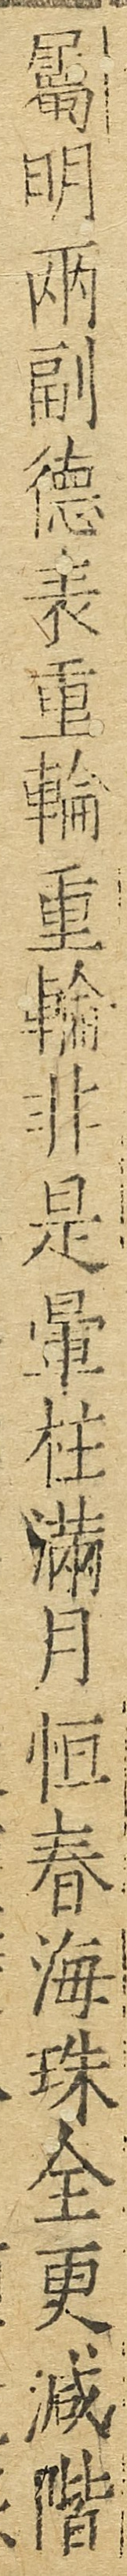屬明兩副德表重輪重輪非是暈桂滿月恆春海珠全更減階
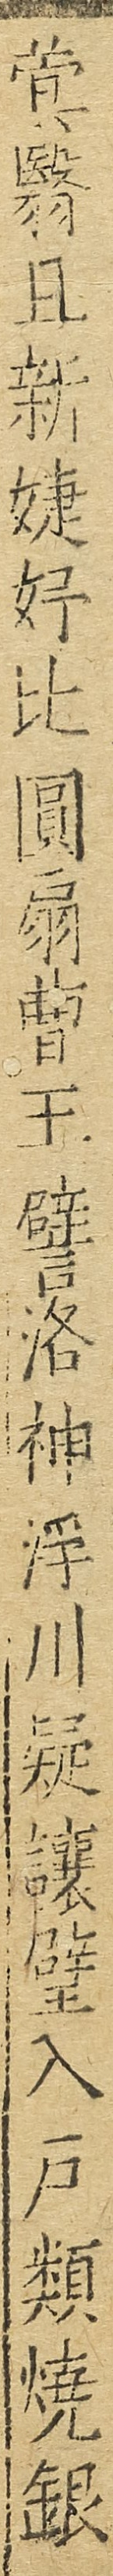蓂翳且新婕妤比圓扇曹王譬洛神浮川疑讓璧入戶類燒銀
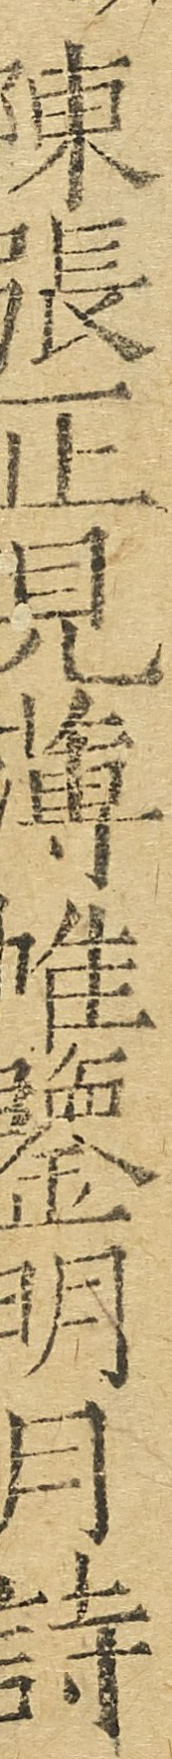陳張正見薄帷鑒明月詩
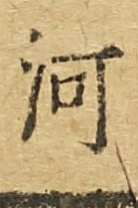河
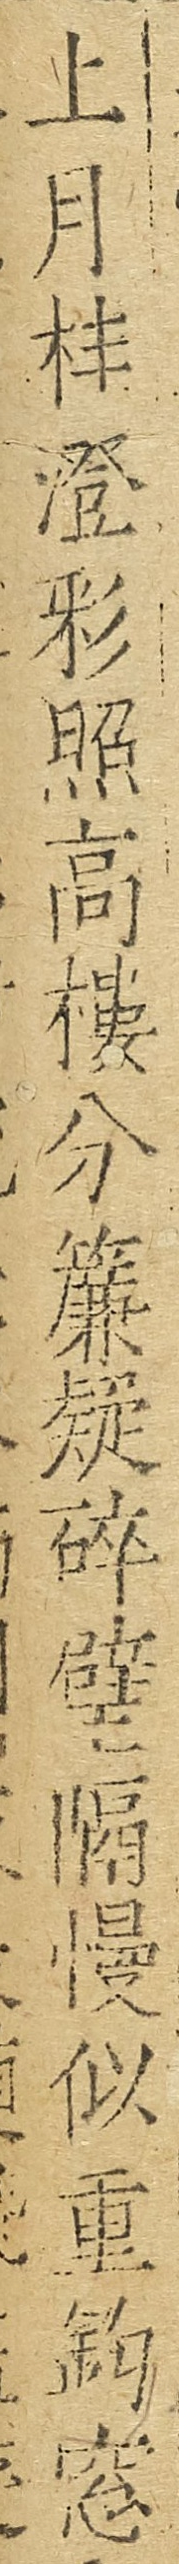上月桂澄彩照高樓分簾疑碎璧隔幔似重鈎窗
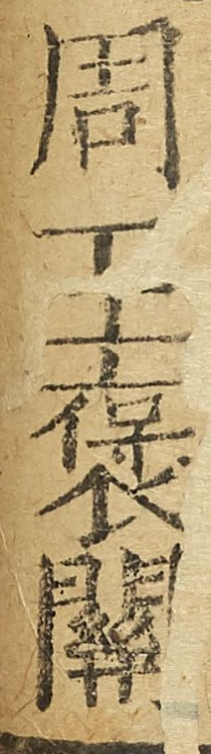周王褒關
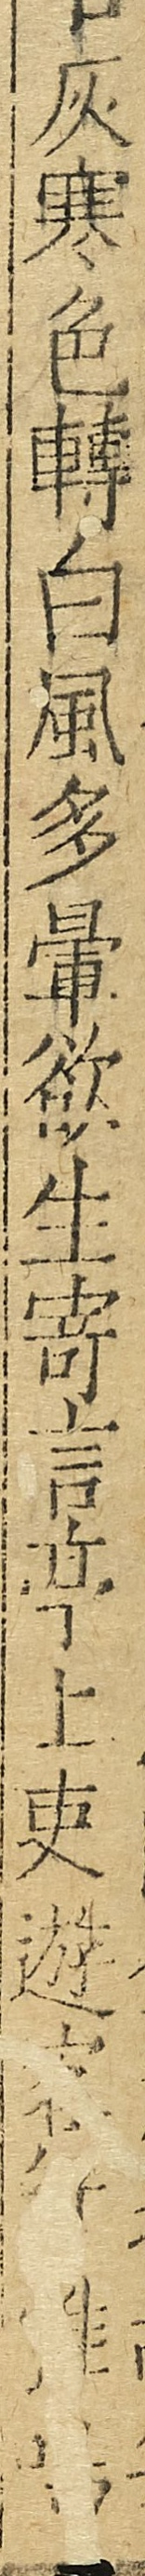灰寒色轉白風多暈欲生寄言亭上吏遊客解雞鳴
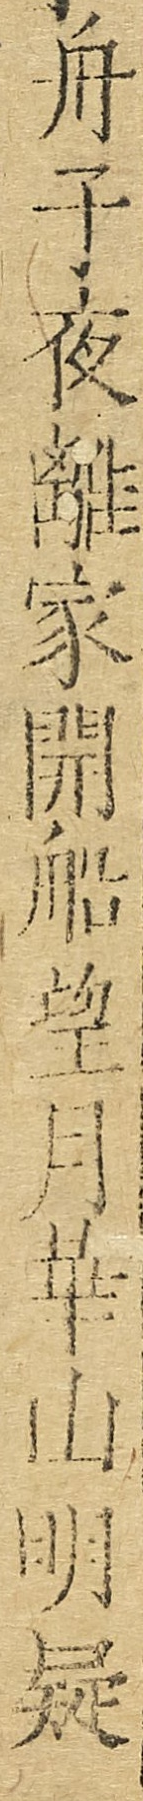舟子夜離家開船望月華山明疑
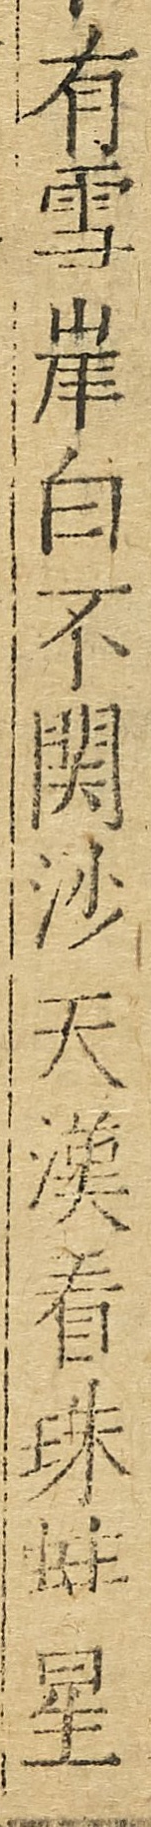有雪岸白不關沙天漢看珠蚌星
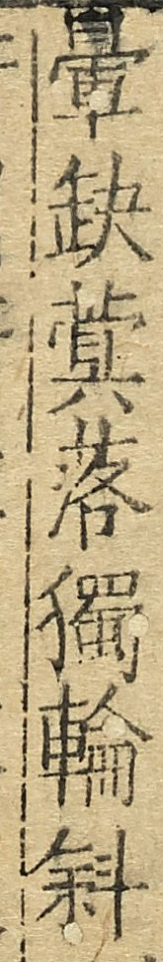暈缺蓂落獨輪斜
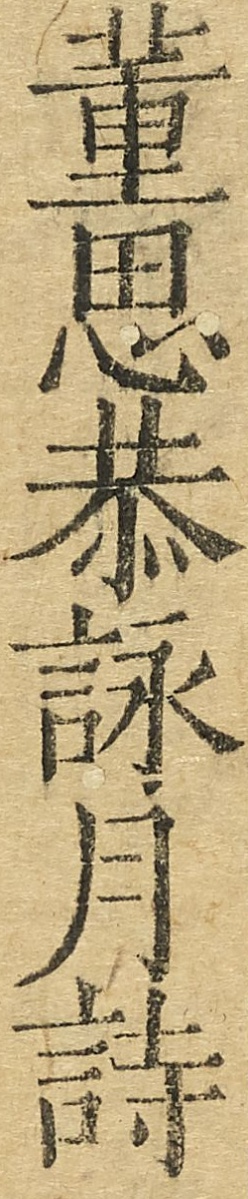董思恭詠月詩
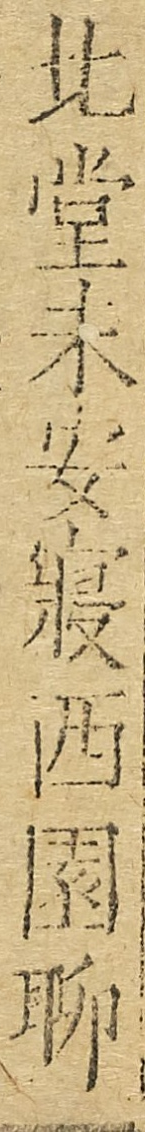北堂未安寢西園聊
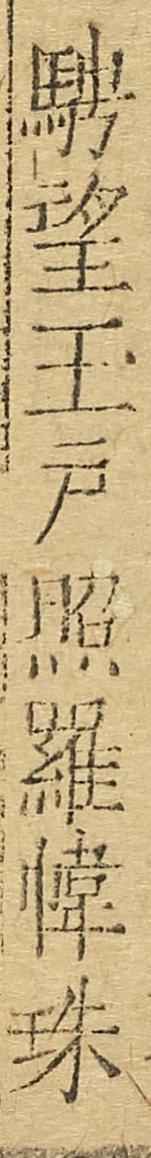騁望玉戶照羅幃珠
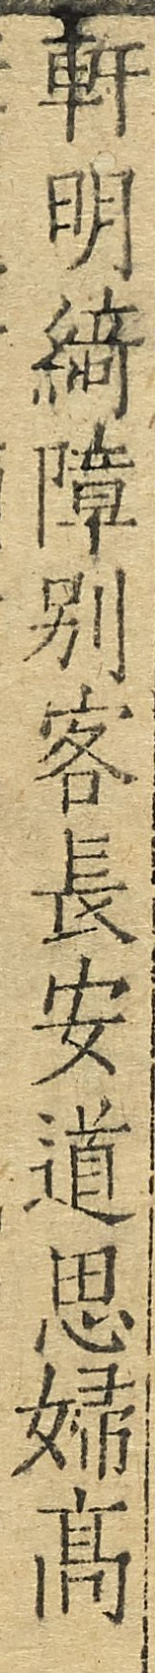軒明綺障別客長安道思婦高
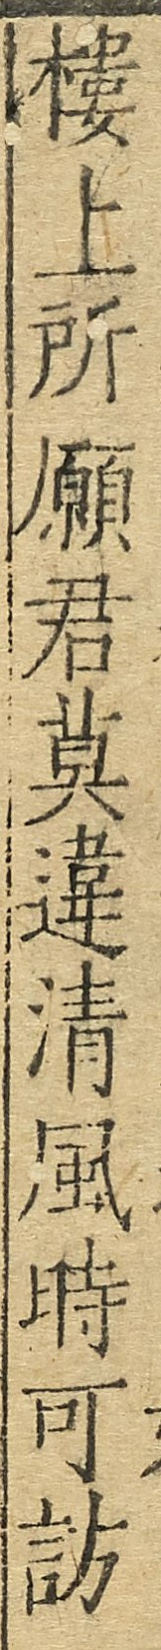樓上所願君莫違清風時可訪
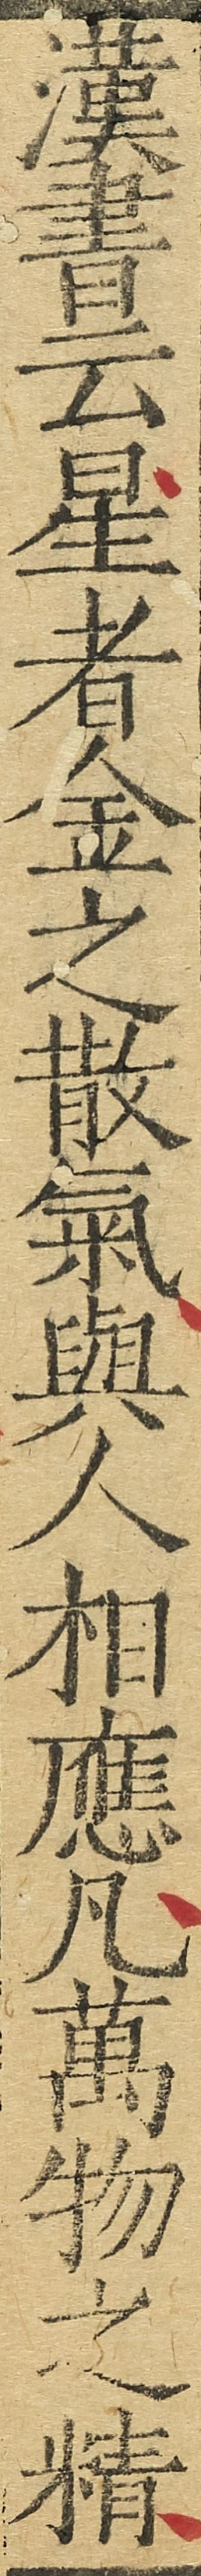漢書云星者金之散氣與人相應凡萬物之精
